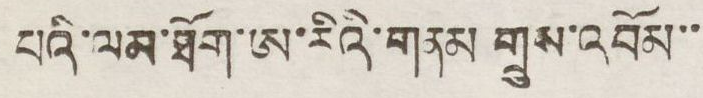པའི་ལམ་ཐོག་ཨ་རིའི་གནམ གྲས་འབོམ་་
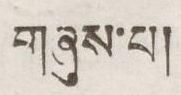གཞུས་པ།
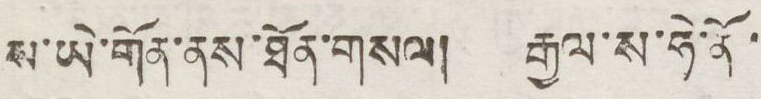ས་ཡེ་གོན་ནས་ཐོན་གསལ། རྒྱལ་ས་ཧེ་ནོ་
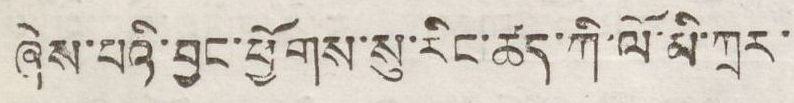ཞེས་པའི་བྱང་ཕྱོགས་སུ་རིང་ཚད་ཀྱི་ལོ་མི་ཀྲར་
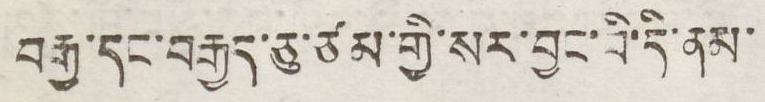བརྒྱ་དང་བརྒྱད་ཅུ་ཙམ་གྱི་སར་བྱུང་བི་དི་ནམ་
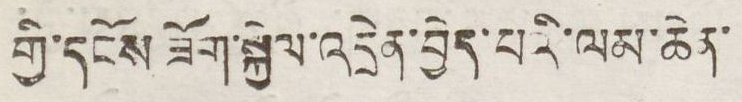གྱི་དངོས ཟོག་སྐྱེལ་འདྲེན་བྱེད་པའི་ལམ་ཆེན་
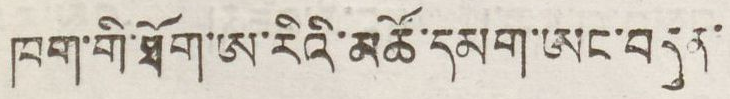ཁག་གི་ཐོག་ཨ་རིའི་མཚོ་དམག་ཨང་བདུན་
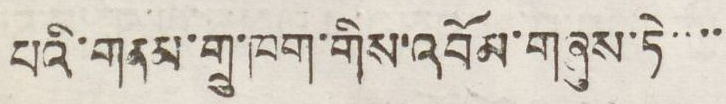པའི་གནམ་གྲུ་ཁག་གིས་འབོམ་གཞུས་ཏེ་་་་
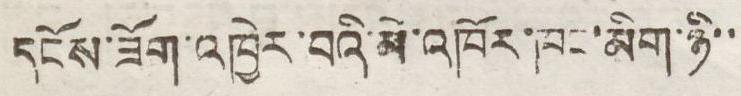དངོས་ཟོག་འཁྱེར་བའི་མེ་འཁོར་ཁང་མིག་ཉི་་
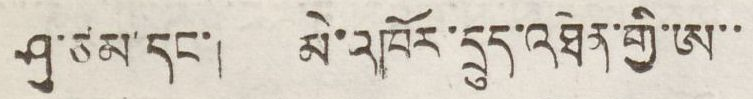ཤུ་ཙམ་དང་། མེ་འཁོར་དྲུད་འཐེན་གྱི་ཨ་་
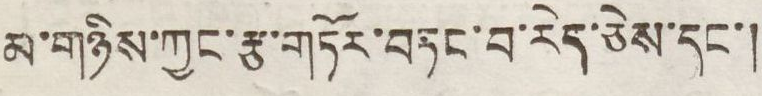མ་གཉིས་ཀྱང་རྩ་གཏོར་བཏང་བ་རེད་ཅེས་དང་།
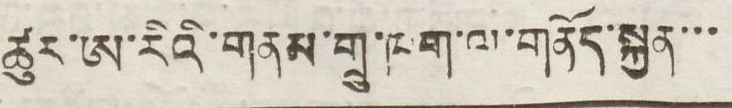ཚུར་ཨ་རིའི་གནམ་གྲུ་ཁག་ལ་གནོད་སྐྲུན་་་
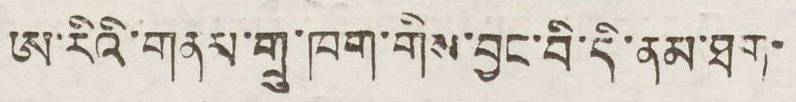ཨ་རིའི་གནས་གྲུ་ཁག་གིས་བྱང་བི་དི་ནམ་ཐག་
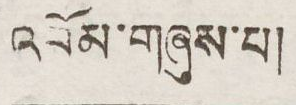འབོམ་གཞུས་པ།
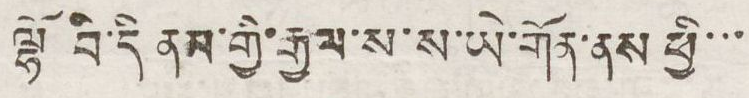ལྷོ བི་དི ནམ་གྱི་རྒྱལ་ས་ས་ཡེ་གོན་ནས ཕྱི་་་
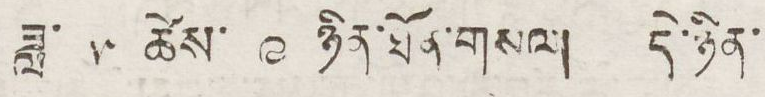ཟླ་ ༥ ཚེས་ ༩ ཉིན་ཐོན་གསལ། དེ་ཉིན་
